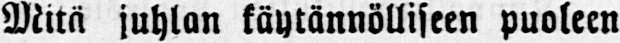Mitä juhlan käytännölliseen puoleen
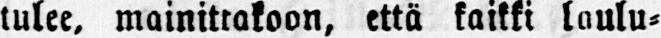tulee, mainittakoon, että kaikki laulu-
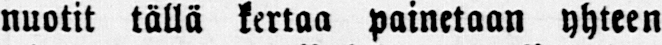nuotit tällä kertaa painetaan yhteen
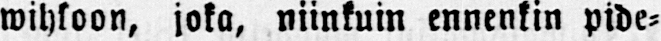wihkoon, joka, niinkuin ennenkin pide-
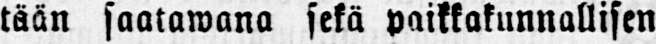tään saatawana sekä paikkakunnallisen
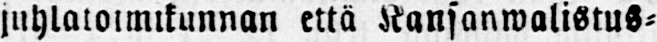juhlaioimkunnan että Kansanwalistus-
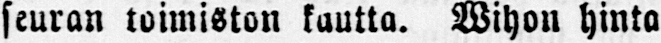seuran toimiston kautta. Wihon hinta
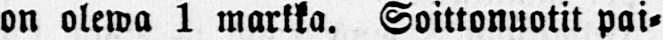on olewa 1 markka. Soittonuotit pai-
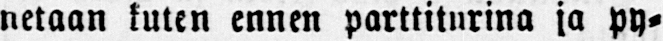netaan kuten ennen parttiturina ja py-
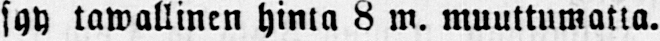syy tawallinen hinta 8 m. muuttumatta.
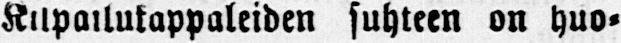Kilpailukappaleiden suhteen on huo-
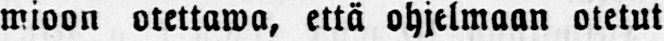mioon olettawa, että ohjelmaan otetut
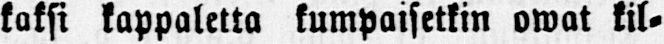kaksi kappaletta kumpaisetkin owat kil-
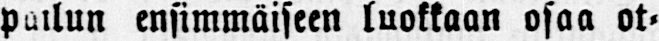pailun ensimmäiseen luokkaan osaa ot-
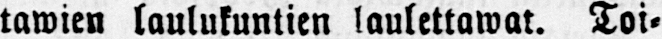tawien laulukuntien laulettawat. Toi-
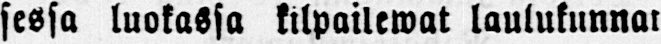sessa luokassa kilpailewat laulukunnat
